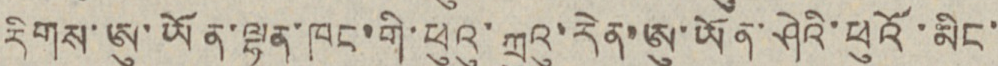རིགས་ཨུ་ཡོན་ལྷན་ཁང་གི་ཕུའུ་ཀྲུའུ་རེན་ཨུ་ཡོན་ཤེའི་ཕུའོ་མིང་
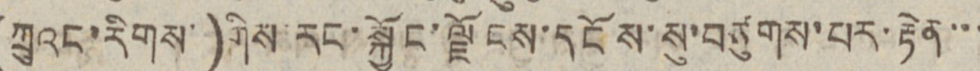(ཀྲུའང་རིགས་)གིས་རང་སྐྱོང་ལྗོངས་དངོས་སུ་བཙུགས་པར་རྟེན་་་
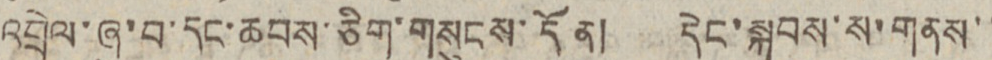འབྲེལ་ཞུ་བ་དང་ཆབས་ཅིག་གསུངས་དོན། དེང་སྐབས་ས་གནས་་
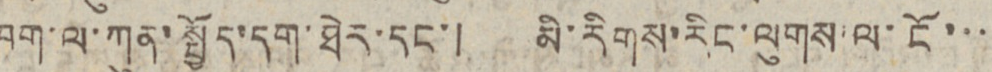ཁག་ལ་ཀུན་སྤྱོད་དག་ཐེར་དང་། མི་རིགས་རིང་ལུགས་ལ་ངོ་་་
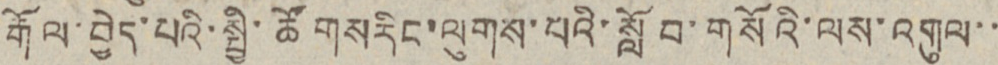རྒོལ་བྱེད་པའི་སྤྱི་ཚོགས རིང་ལུགས་པའི་སློབ་གསོའི་ལས་འགུལ་་
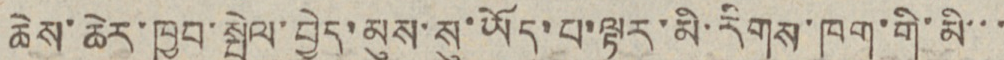ཆེས་ཆེར་ཁྱབ་སྤེལ་བྱེད་མུས་སུ་ཡོད་པ་ལྟར་མི་རིགས་ཁག་གི་མི་་་
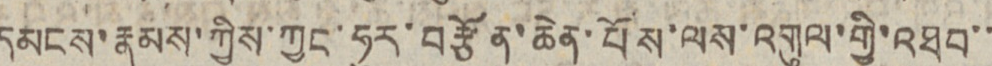དམངས་རྣམས་ཀྱིས་ཀྱང་ཧུར་བརྩོན་ཆེན་པོས་ལས་འགུལ་གྱི་འཐབ་་
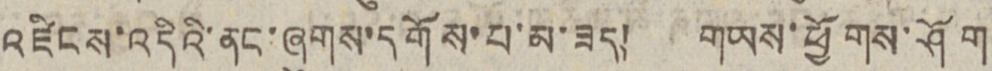འཛིངས་འདིའི་ནང་ཞུགས་དགོས་པ་མ་ཟད། གཡས་ཕྱོགས་ཤོག་
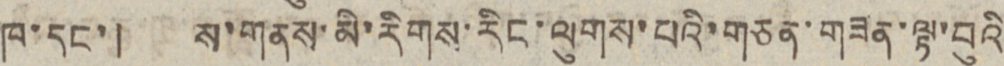ཁ་དང་། ས་གནས་མི་རིགས་རིང་ལུགས་པའི་གཅན་གཟན་ལྟ་བུའི
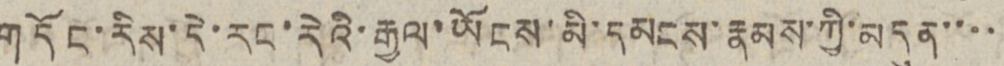གདོང་རིས་དེ་རང་རེའི་རྒྱལ་ཡོངས་མི་དམངས་རྣམས་ཀྱི་མདུན་་་་
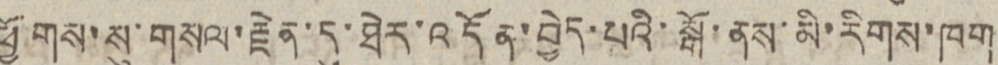ཕྱོགས་སུ་གསལ་རྗེན་དུ་ཐེར་འདོན་བྱེད་པའི་སྒོ་ནས་མི་རིགས་ཁག
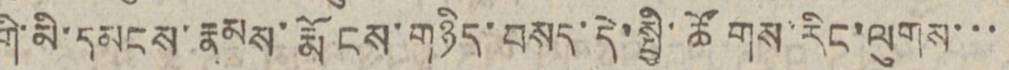གི་མི་དམངས་རྣམས་རྨོངས་གཉིད་བསད་དེ་སྤྱི་ཚོགས་རིང་ལུགས་་་
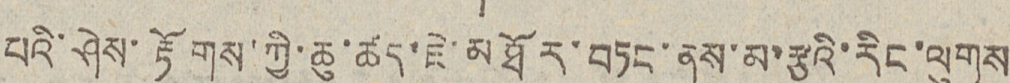པའི་ཤེས་རྟོགས་ཀྱི་ཆུ་ཚད་ཇེ་མཐོར་བཏང་ནས་མ་རྩའི་རིང་ལུགས
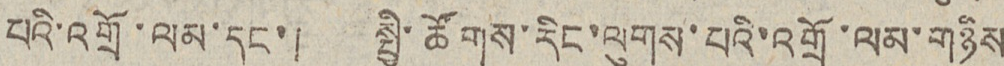པའི་འགྲོ་ལམ་དང་། སྤྱི་ཚོགས་རིང་ལུགས་པའི་འགྲོ་ལམ་གཉིས
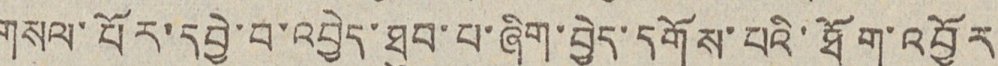གསལ་པོར་དབྱེ་བ་འབྱེད་ཐུབ་པ་ཞིག་བྱེད་དགོས་པའི་ཐོག་འབྱོར
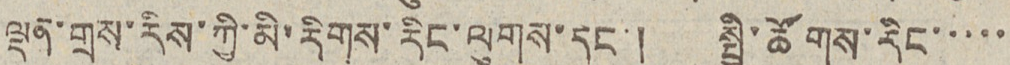ལྡན་གྲས་རིས་ཀྱི་མི་རིགས་རིང་ལུགས་དང་། སྤྱི་ཚོགས་རིང་་་་་
